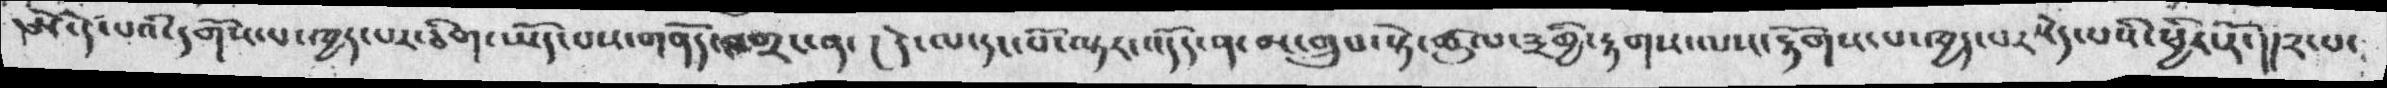ཨེ་དེ་པའི་དགོས་པ་ཁྱད་པར་ཅིག་ཡོད་པས་གནོད་བགྲང་ན་།   དེ་ལ་དང་པོ་ལྟར་ན་འདོད་ན་མ་གྲུབ་སྟེ་ཚུལ་༣གྱི་རྟགས་ལས་རྟོགས་པ་ཁྱད་པས་མེད་པའི་ཕྱིར་རོ་།།༢་པ་
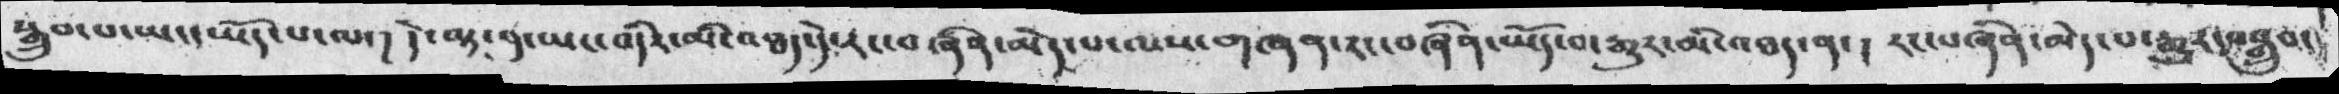སྒྲུབ་པ་ཡང་ཡོད་པ་ལ་། དེ་ལྟ་བུ་ཡང་འདིར་མི་འཐད་དེ་རང་བཞིན་མེད་པ་ལས་གཞན་རང་བཞིན་ཡོད་པ་རྒུར་མི་འཐད་ན་། རང་བཞིན་མེད་པ་རྒྱུར་བསྒྲུབ་
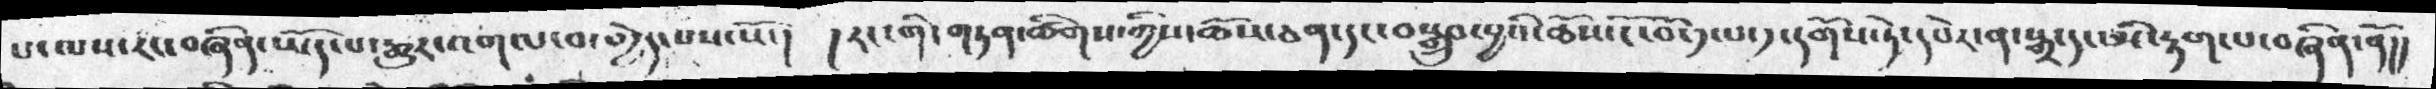པ་ལས་རང་བཞིན་ཡོད་རྒྱུར་འགལ་བ་མྱེད་པས་སོ་།  །རང་གི་གཏན་ཚིགས་ཀྱིས་ཆོས་ཅན་དང་བསྒྲུབ་བྱའི་ཆོས་ངོ་བོ་༡་པ་༡་དགོས་ཏེ་དཔེར་ན་སྒྲ་དང་མི་རྟག་པ་བཞིན་ནོ།།
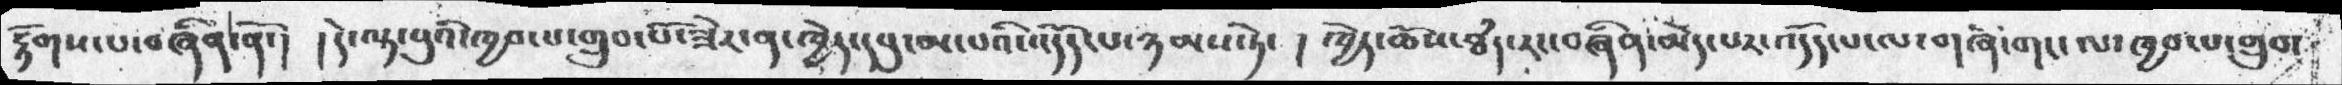རྟོགས་པ་བཞིན་ནོ་། །དེ་ལྟ་བུའི་ཁྱབ་པ་གྲུབ་པོ་ཟེར་ན་ཁྱེད་དབུ་མ་པའི་འདོད་པ་ཉམས་ཏེ་  ། ཁྱེད་ཆོས་ཐཾད་རང་བཞིན་མེད་པར་འདོད་པ་ལ་གཞི་གང་ལ་ཁྱབ་པ་གྲུབ་
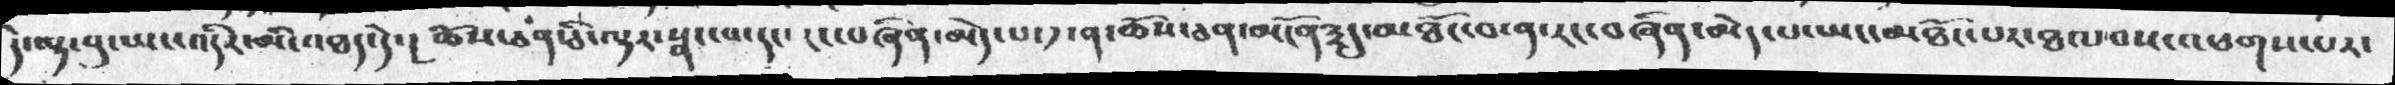དེ་ལྟ་བུ་ཡང་འདིར་མི་འཐད་དེ་། ཆོས་ཅན་ཅི་ལྟར་སྣང་བ་དང་ རང་བཞིན་མེད་པ་༡་ན་ཆོས་ཅན་མངོན༣དུ་མཐོང་བ་ན་རང་བཞིན་མེད་པ་ཡང་མཐོང་པར་ཐལ་བས་འཕགས་པར་
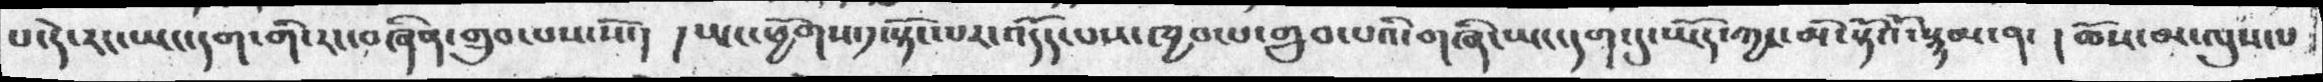པ་དེ་རང་ཡང་དག་གི་རང་བཞིན་གྲུབ་པས་སོ་། །ཡང་ཕྱོགས་༡་སྟོང་པར་འདོད་པས་ཁྱབ་པ་གྲུབ་པའི་གཞི་ཡང་དག་དུ་ཡོད་ཀྱང་མི་སྟོའོ་སྙམ་ན་ ། ཆོས་མ་ལུས་པ
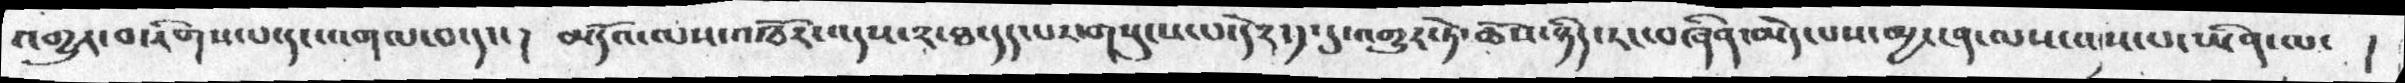འགྱུར་བ་རིགས་པ་དང་འགལ་བ་དང་། མདོའ་ལས་འཁོར་འདས་༢་ཐ་དད་པར་གསུངས་པ་དེ་༡་དུ་འགྱུར་ཏེ་ཆོས་ཉིད་རང་བཞིན་མེད་པས་མྱ་ངན་ལས་འདས་ཡ་ཡིན་ལ་   །
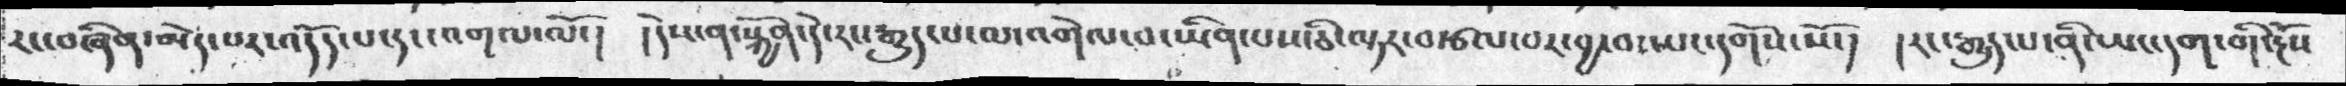རང་བཞིན་མེད་པར་འདོད་པ་དང་འགལ་ལོ་།  ། དེས་ན་སྐྱོན་དེ་རང་རྒྱུད་པ་ལ་འགེལ་བ་ཡིན་པས་ཅི་ལྟར་བརྩོལ་བར་བྱ་བ་ཡང་དགོས་སོ་། །རང་རྒྱུད་པ་ནི་ཡང་དག་གི་རྔོས
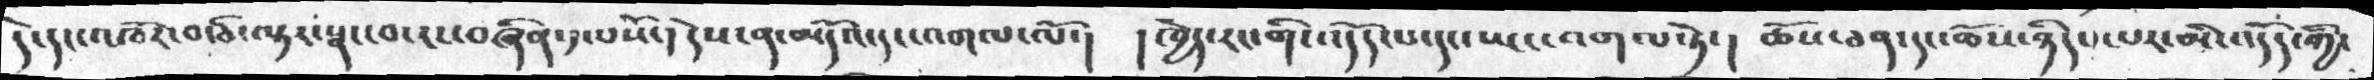དེ་དང་འཁོར་བ་ཅི་ལྟར་སྣང་བ་རང་བཞིན་༡་པས་སོ་། དེས་ན་མདོའ་དང་འགལ་ལོ་།  ། ཁྱེད་རང་གི་འདོད་པ་དང་ཡང་འགལ་ཏེ་།  ཆོས་ཅན་དང་ཆོས་ཉིད་པར་མི་འདོད་ཀྱི་
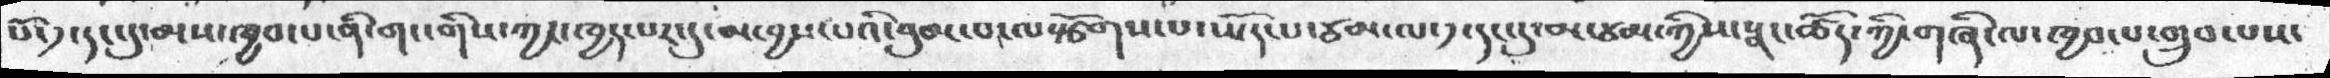པོ་༡་དང་དུ་མས་ཁྱབ་པ་ནི་གང་གིས་ཀྱང་ཁྱད་པར་དུ་མ་བྱས་པའི་བུམ་པ་ལསྩོགས་པ་ཡོད་པ་ཙམ་ལ་༡་དང་དུ་མ་ཙམ་ཀྱིས་སྣང་ཚོད་ཀྱི་གཞི་ལ་ཁྱབ་པ་གྲུབ་པས་
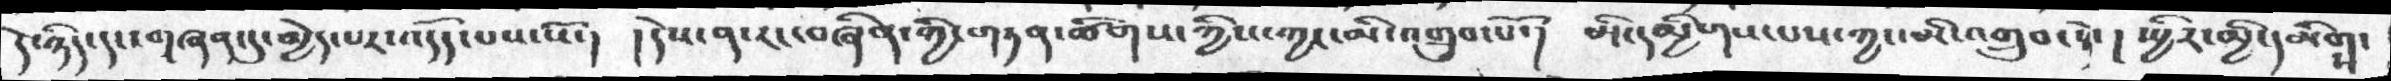དེ་ཉིད་དང་གཞན་དུ་མྱེད་པར་འདོད་པས་སོ་།   །དེས་ན་རང་བཞིན་གྱི་གཏན་ཚོགས་ཀྱིས་ཀྱང་མི་འགྲུབ་སོ་། མི་དམྱིགས་པས་ཀྱང་མི་འགྲུབ་སྟེ་།   ཡྱིར་མྱི་དམིགས་
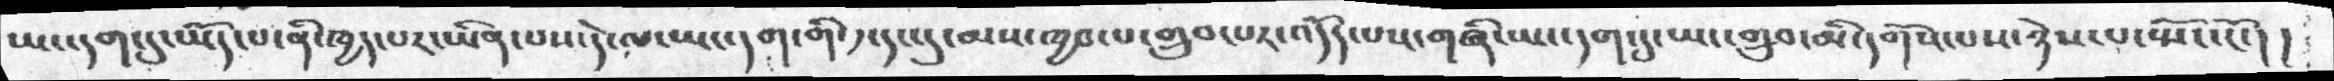ཡང་དག་དུ་ཡོད་པ་ནི་ཁྱད་པར་ཡིན་པས་དེ་ལ་ཡང་དག་གི་༡་དང་དུ་མས་ཁྱབ་པ་གྲུབ་པར་འདོད་པས་གཞི་ཡང་དག་དུ་ཡང་གྲུབ་མི་དགོས་པས་ཉེས་པ་སྤོང་ངོ་། །
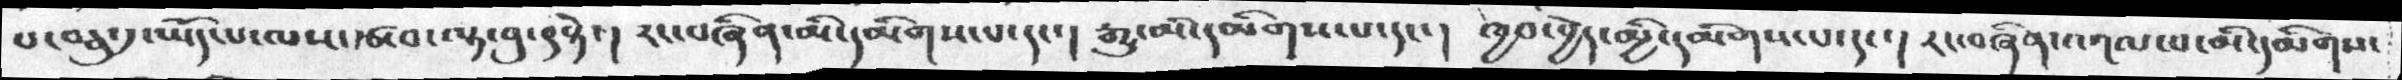པ་བཅུ་༡་ཡོད་པ་ལས་རྩ་བ་ལྟ་བུ་བཡ་སྟེ་།  རང་བཞིན་མི་དམིགས་པ་དང་།   རྒྱུ་མི་དམིགས་པས་དང་།  ཁྱབ་བྱེད་མྱི་དམིགས་པ་དང་།  རང་བཞིན་འགལ་པ་མི་དམིགས་
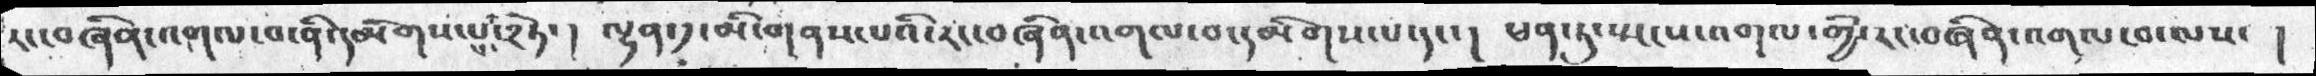རང་བཞིག་འགལ་བ་ནི་དམིགས་པ་༢་ཏེ་།   ལྟན་དུ་མི་གནས་པའི་རང་བཞིན་འགལ་བ་དམིགས་པ་དང་།  ཕན་ཏུ་སྤངས་འགལ་གྱི་རང་བཞིན་འགལ་བ་   །
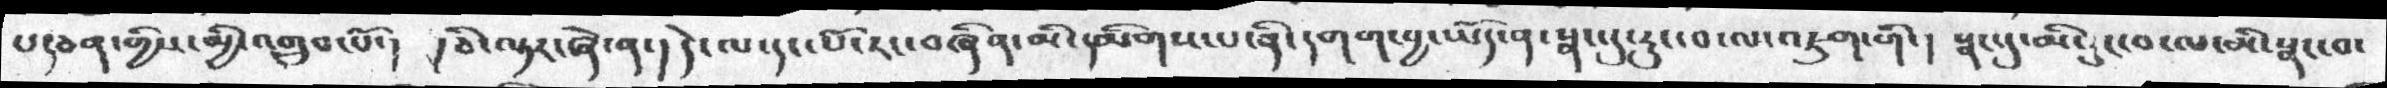པ་ཅན་གྱིས་མྱི་འགྲུབ་པོ་། །ཅི་ལྟར་ཞེ་ན་། དེ་ལ་དང་པོ་རང་བཞིན་མི་དམིགས་པ་ནི་དགག་བྱ་ཡོད་ན་སྣང་དུ་རུང་བ་ལ་འཇུག་གི་། སྣང་དུ་མི་རུང་བ་ལ་མི་སྣང་བ་
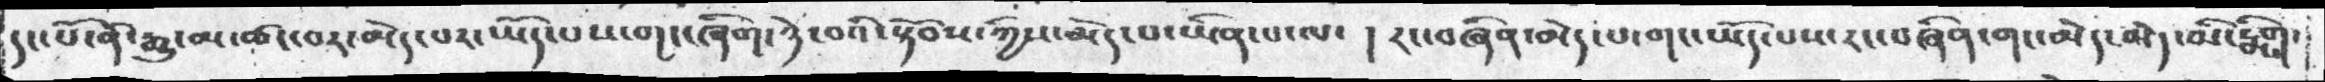དང་པོ་ནི་རྒྱུ་མ་ཚང་བར་མེད་པར་ཡོད་པས་གང་ཞིག་ཉེ་བའི་སྟོབས་ཀྱིས་མེད་པ་ཡིན་པ་ལ་  ། རང་བཞིན་མེད་པ་གང་ཡོད་པས་རང་བཞིན་གང་མེད་མེད་མི་སྨིགས་
